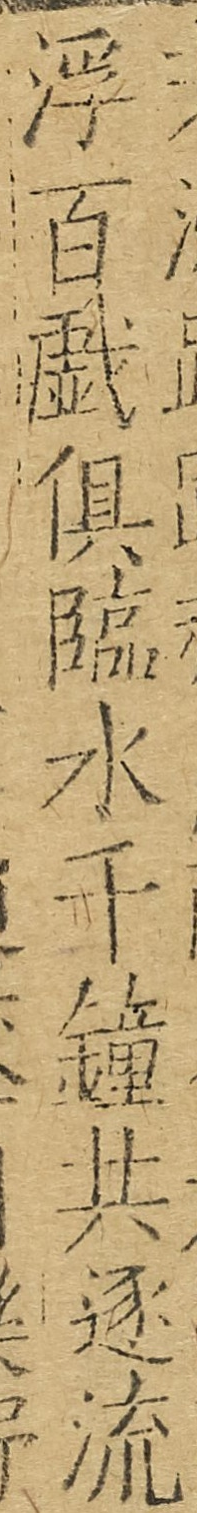浮百戲俱臨水千鐘共逐流
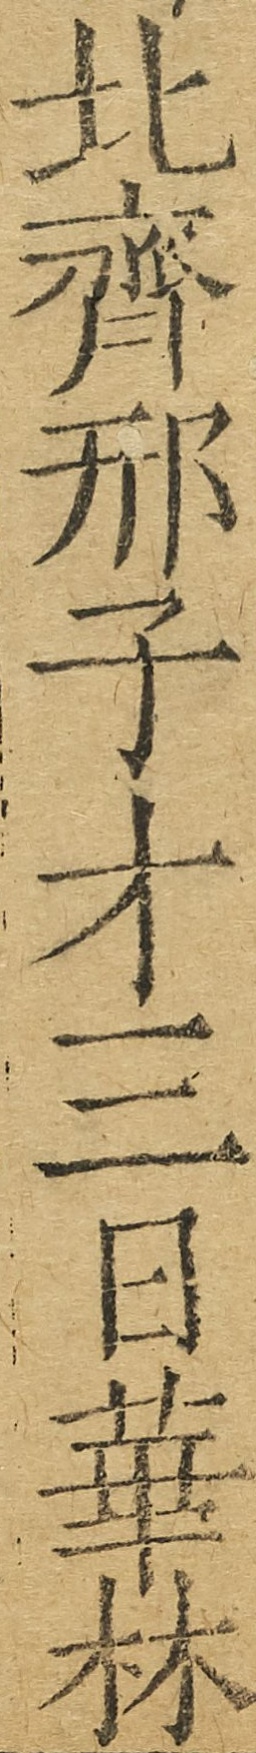北齊邢子才三日華林
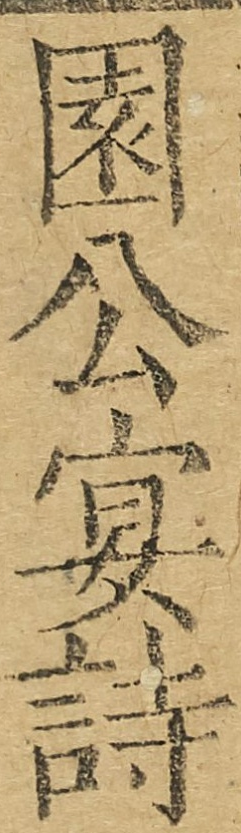園公宴詩
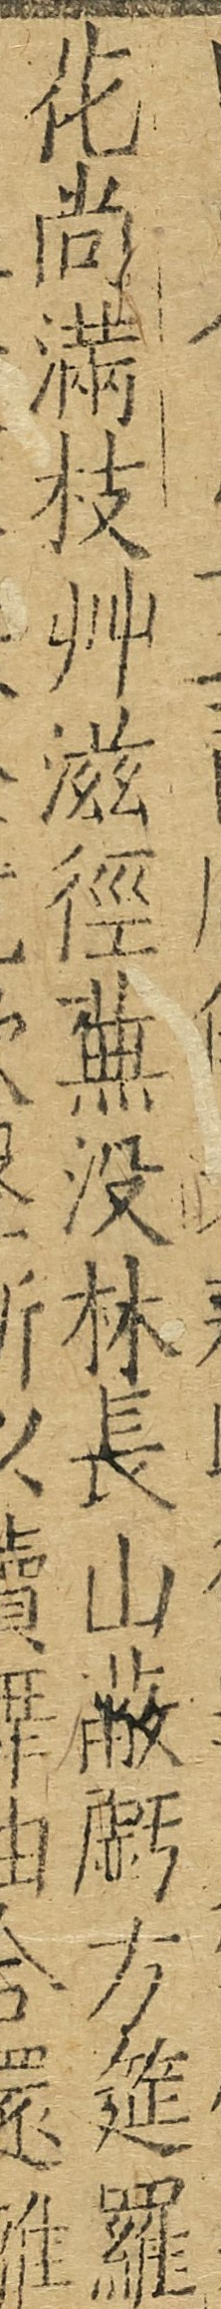花尚滿枝艸滋徑蕪沒林長山蔽虧方筵羅
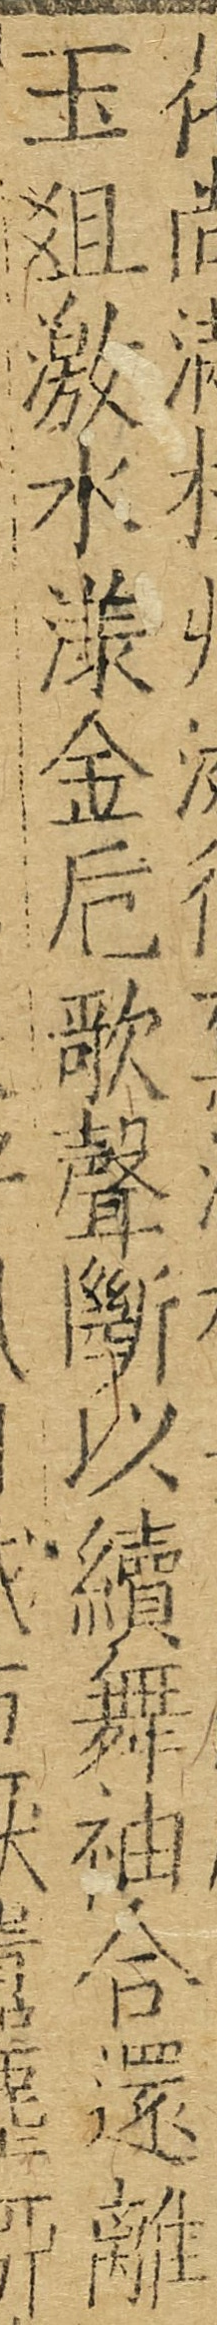玉俎激水漾金巵歌聲斷以續舞袖合還離
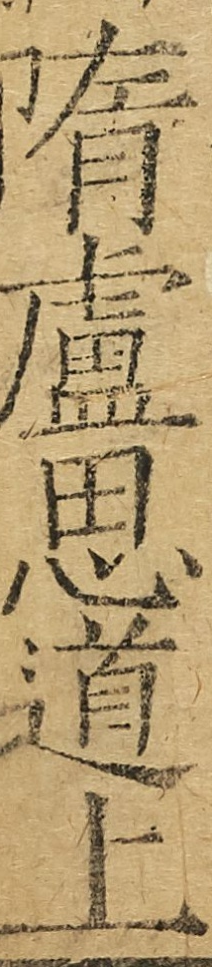隋盧思道上
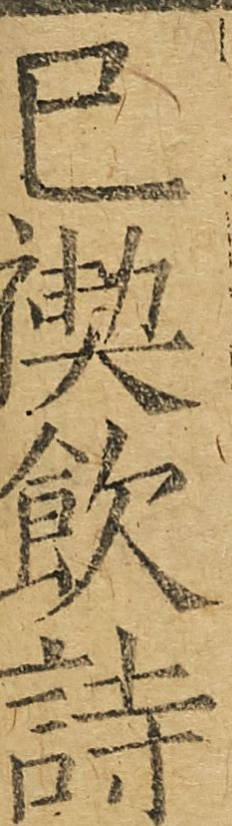巳禊飲詩
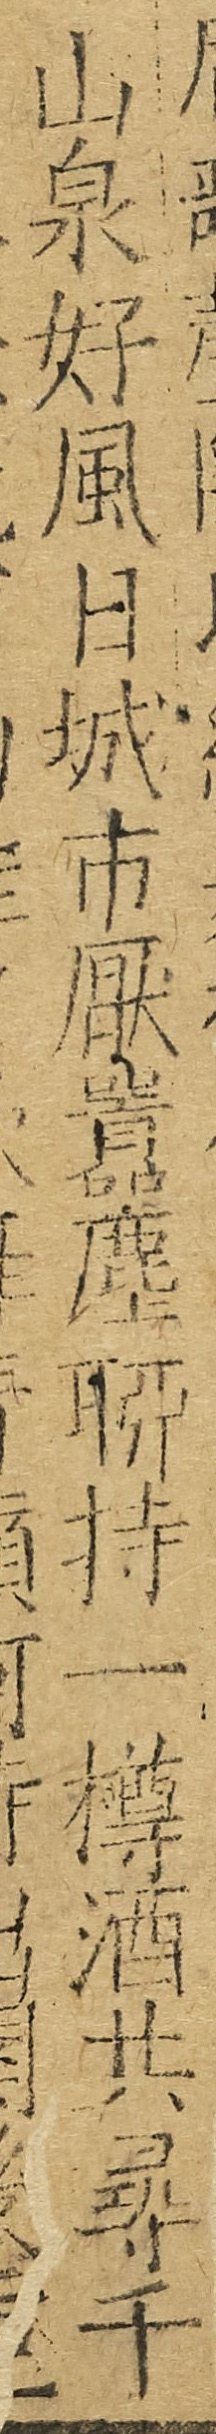山泉好風日城市厭囂塵聊持一樽酒共尋千
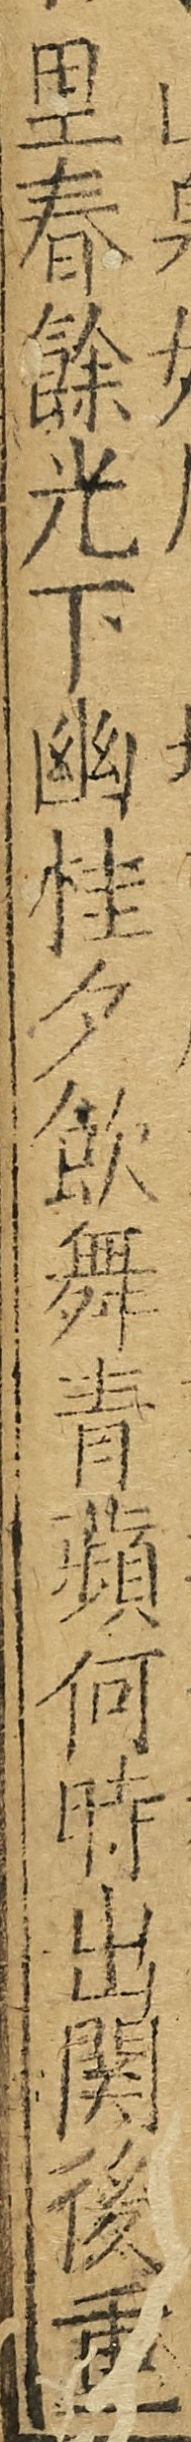里春餘光下幽桂夕吹舞青蘋何時出關後重
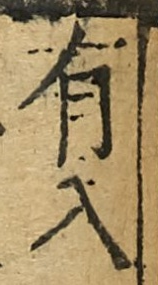有入
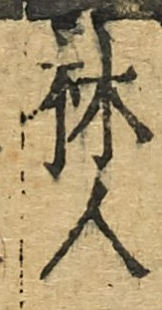林人
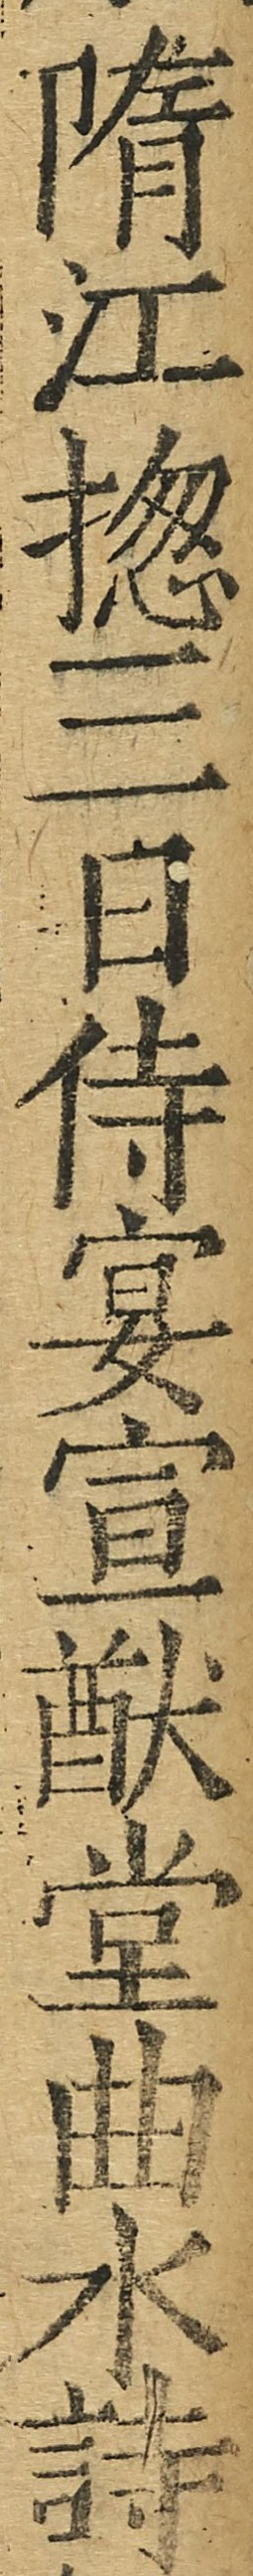隋江揔三日侍宴宣猷堂曲水詩
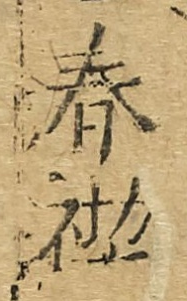春禊
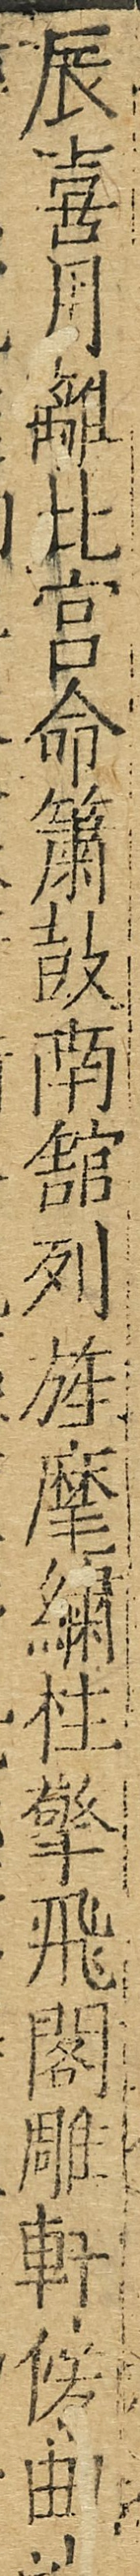辰喜月離北宮命簫鼓南館列旌麾繡柱擎飛閣雕軒傍曲
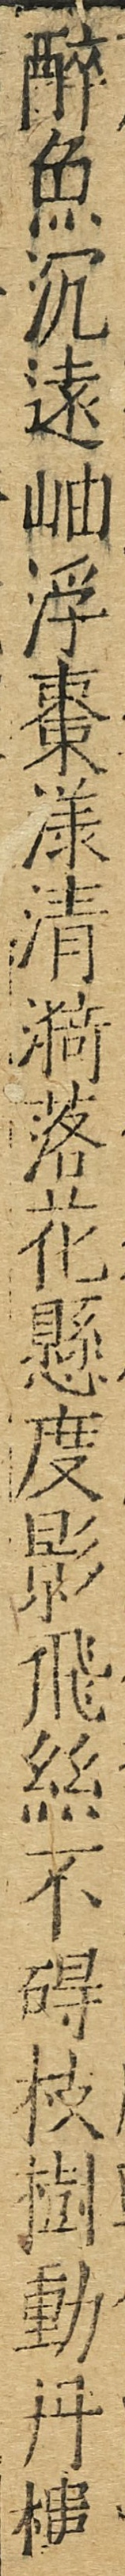醉魚沉遠岫浮棗漾清漪落花懸度影飛絲不碍枝樹動丹樓
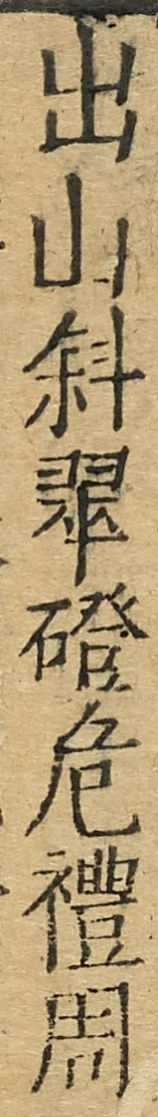出山斜翠磴危禮周
